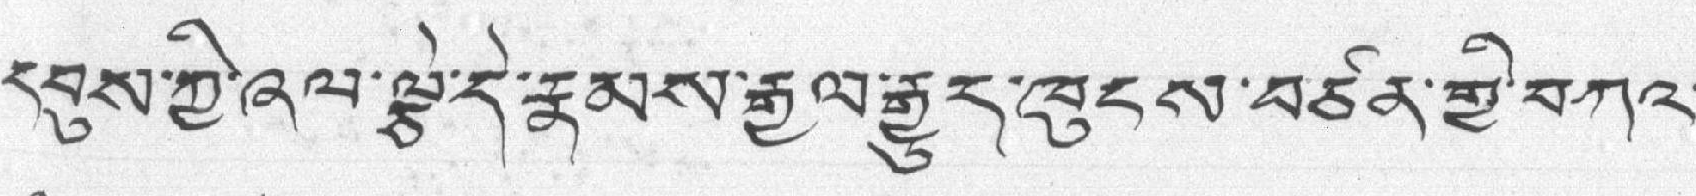དབུས་ཀྱི་ཞལ་ལྕེ་དེ་རྣམས་རྒྱལ་རྒྱུད་ཁུངས་བཙན་གྱི་བཀའ་
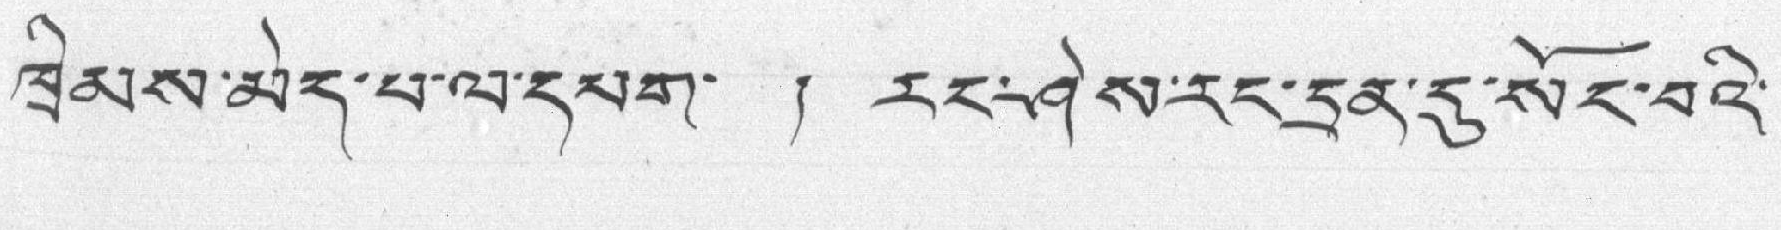ཁྲིམས་མེད་པ་ལ་དམག་ ། རང་ཤེས་རང་དྲན་དུ་སོང་བའི་
